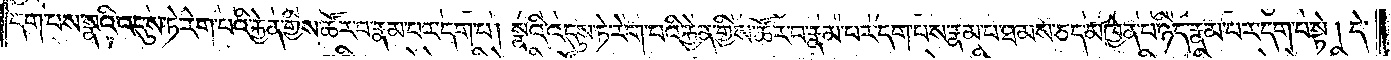དག་པས་སྣའི་འདུས་ཏེ་རེག་པའི་རྐྱེན་གྱིས་ཚོར་བ་རྣམ་པར་དག་པ། སྣའི་འདུས་ཏེ་རེག་པའི་རྐྱེན་གྱིས་ཚོར་བ་རྣམ་པར་དག་པས་རྣམ་པ་ཐམས་ཅད་མཁྱེན་པ་ཉིད་རྣམ་པར་དག་པ་སྟེ། དེ་
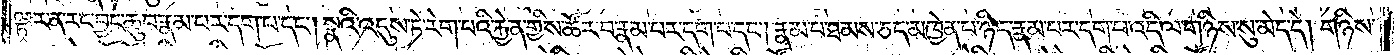ལྟར་ན་རང་བྱང་ཆུབ་རྣམ་པར་དག་པ་དང༌། སྣའི་འདུས་ཏེ་རེག་པའི་རྐྱེན་གྱིས་ཚོར་བ་རྣམ་པར་དག་པ་དང༌། རྣམ་པ་ཐམས་ཅད་མཁྱེན་པ་ཉིད་རྣམ་པར་དག་པ་འདི་ལ་གཉིས་སུ་མེད་དེ། གཉིས་
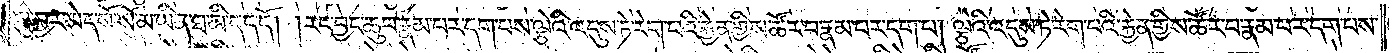སུ་བྱར་མེད་སོ་སོ་མ་ཡིན་ཐ་མི་དད་དོ། །རང་བྱང་ཆུབ་རྣམ་པར་དག་པས་ལྕེའི་འདུས་ཏེ་རེག་པའི་རྐྱེན་གྱིས་ཚོར་བ་རྣམ་པར་དག་པ། ལྕེའི་འདུས་ཏེ་རེག་པའི་རྐྱེན་གྱིས་ཚོར་བ་རྣམ་པར་དག་པས་
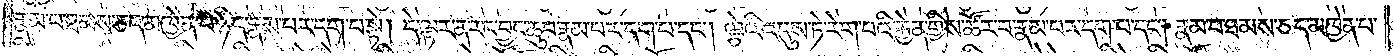རྣམ་པ་ཐམས་ཅད་མཁྱེན་པ་ཉིད་རྣམ་པར་དག་པ་སྟེ། དེ་ལྟར་ན་རང་བྱང་ཆུབ་རྣམ་པར་དག་པ་དང༌། ལྕེའི་འདུས་ཏེ་རེག་པའི་རྐྱེན་གྱིས་ཚོར་བ་རྣམ་པར་དག་པ་དང༌། རྣམ་པ་ཐམས་ཅད་མཁྱེན་པ་
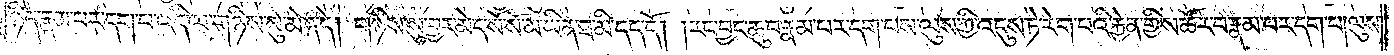ཉིད་རྣམ་པར་དག་པ་འདི་ལ་གཉིས་སུ་མེད་དེ། གཉིས་སུ་བྱར་མེད་སོ་སོ་མ་ཡིན་ཐ་མི་དད་དོ། །རང་བྱང་ཆུབ་རྣམ་པར་དག་པས་ལུས་ཀྱི་འདུས་ཏེ་རེག་པའི་རྐྱེན་གྱིས་ཚོར་བ་རྣམ་པར་དག་པ། ལུས་
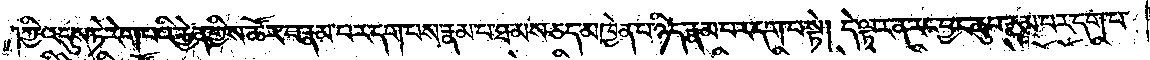ཀྱི་འདུས་ཏེ་རེག་པའི་རྐྱེན་གྱིས་ཚོར་བ་རྣམ་པར་དག་པས་རྣམ་པ་ཐམས་ཅད་མཁྱེན་པ་ཉིད་རྣམ་པར་དག་པ་སྟེ། དེ་ལྟར་ན་རང་བྱང་ཆུབ་རྣམ་པར་དག་པ་
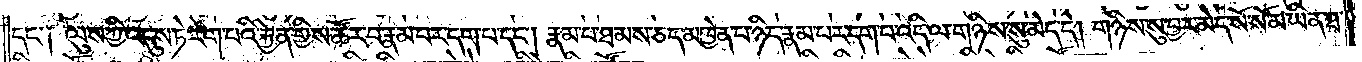དང་༑ ལུས་ཀྱི་འདུས་ཏེ་རེག་པའི་རྐྱེན་གྱིས་ཚོར་བ་རྣམ་པར་དག་པ་དང༌། རྣམ་པ་ཐམས་ཅད་མཁྱེན་པ་ཉིད་རྣམ་པར་དག་པ་འདི་ལག་ཉིས་སུ་མེད་དེ། གཉིས་སུ་བྱར་མེད་སོ་སོ་མ་ཡིན་ཐ་
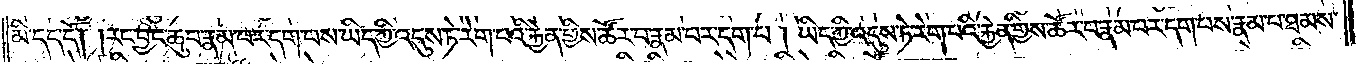མི་དད་དོ། །རང་བྱང་ཆུབ་རྣམ་པར་དག་པས་ཡིད་ཀྱི་འདུས་ཏེ་རེག་པའི་རྐྱེན་གྱིས་ཚོར་བ་རྣམ་པར་དག་པ། ཡིད་ཀྱི་འདུས་ཏེ་རེག་པའི་རྐྱེན་གྱིས་ཚོར་བ་རྣམ་པར་དག་པས་རྣམ་པ་ཐམས་
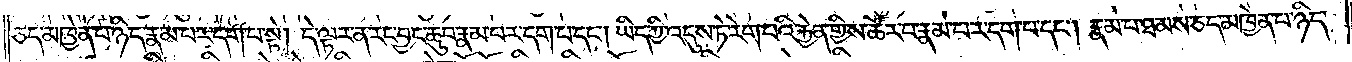ཅད་མཁྱེན་པ་ཉིད་རྣམ་པར་དག་པ་སྟེ། དེ་ལྟར་ན་རང་བྱང་ཆུབ་རྣམ་པར་དག་པ་དང༌། ཡིད་ཀྱི་འདུས་ཏེ་རེག་པའི་རྐྱེན་གྱིས་ཚོར་བ་རྣམ་པར་དག་པ་དང༌། རྣམ་པ་ཐམས་ཅད་མཁྱེན་པ་ཉིད་
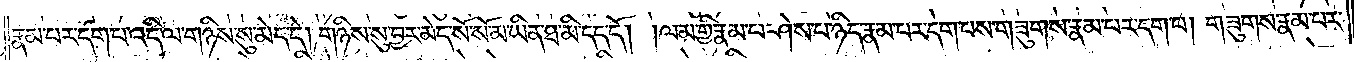རྣམ་པར་དག་པ་འདི་ལ་གཉིས་སུ་མེད་དེ། གཉིས་སུ་བྱར་མེད་སོ་སོ་མ་ཡིན་ཐ་མི་དད་དོ། །ལམ་གྱི་རྣམ་པ་ཤེས་པ་ཉིད་རྣམ་པར་དག་པས་གཟུགས་རྣམ་པར་དག་པ། གཟུགས་རྣམ་པར་
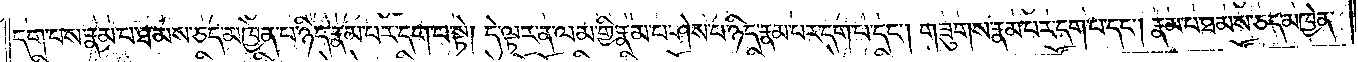དག་པས་རྣམ་པ་ཐམས་ཅད་མཁྱེན་པ་ཉིད་རྣམ་པར་དག་པ་སྟེ། དེ་ལྟར་ན་ལམ་གྱི་རྣམ་པ་ཤེས་པ་ཉིད་རྣམ་པར་དག་པ་དང༌། གཟུགས་རྣམ་པར་དག་པ་དང༌། རྣམ་པ་ཐམས་ཅད་མཁྱེན་
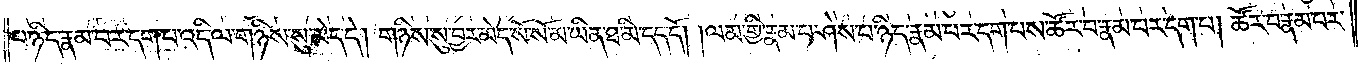པ་ཉིད་རྣམ་པར་དག་པ་འདི་ལ་གཉིས་སུ་མེད་དེ། གཉིས་སུ་བྱར་མེད་སོ་སོ་མ་ཡིན་ཐ་མི་དད་དོ། །ལམ་གྱི་རྣམ་པ་ཤེས་པ་ཉིད་རྣམ་པར་དག་པས་ཚོར་བ་རྣམ་པར་དག་པ། ཚོར་བ་རྣམ་པར་
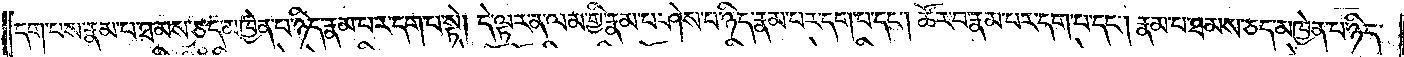དག་པས་རྣམ་པ་ཐམས་ཅད་མཁྱེན་པ་ཉིད་རྣམ་པར་དག་པ་སྟེ། དེ་ལྟར་ན་ལམ་གྱི་རྣམ་པ་ཤེས་པ་ཉིད་རྣམ་པར་དག་པ་དང༌། ཚོར་བ་རྣམ་པར་དག་པ་དང༌། རྣམ་པ་ཐམས་ཅད་མཁྱེན་པ་ཉིད་
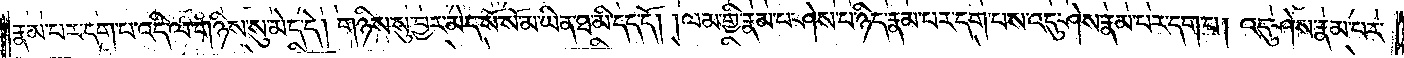རྣམ་པར་དག་པ་འདི་ལ་གཉིས་སུ་མེད་དེ། གཉིས་སུ་བྱར་མེད་སོ་སོ་མ་ཡིན་ཐ་མི་དད་དོ། །ལམ་གྱི་རྣམ་པ་ཤེས་པ་ཉིད་རྣམ་པར་དག་པས་འདུ་ཤེས་རྣམ་པར་དག་པ། འདུ་ཤེས་རྣམ་པར་
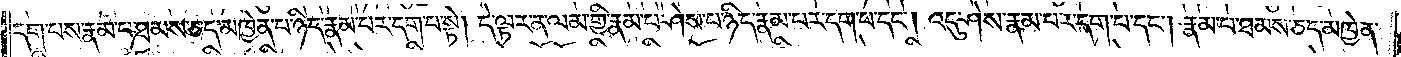དག་པས་རྣམ་པ་ཐམས་ཅད་མཁྱེན་པ་ཉིད་རྣམ་པར་དག་པ་སྟེ། དེ་ལྟར་ན་ལམ་གྱི་རྣམ་པ་ཤེས་པ་ཉིད་རྣམ་པར་དག་པ་དང༌། འདུ་ཤེས་རྣམ་པར་དག་པ་དང༌། རྣམ་པ་ཐམས་ཅད་མཁྱེན་
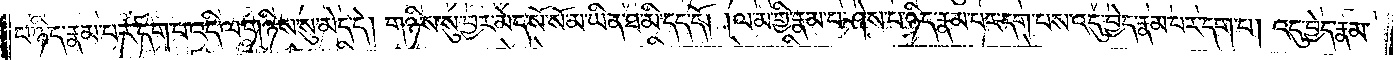པ་ཉིད་རྣམ་པར་དག་པ་འདི་ལ་གཉིས་སུ་མེད་དེ། གཉིས་སུ་བྱར་མེད་སོ་སོ་མ་ཡིན་ཐ་མི་དད་དོ། །ལམ་གྱི་རྣམ་པ་ཤེས་པ་ཉིད་རྣམ་པར་དག་པས་འདུ་བྱེད་རྣམ་པར་དག་པ། འདུ་བྱེད་རྣམ་
